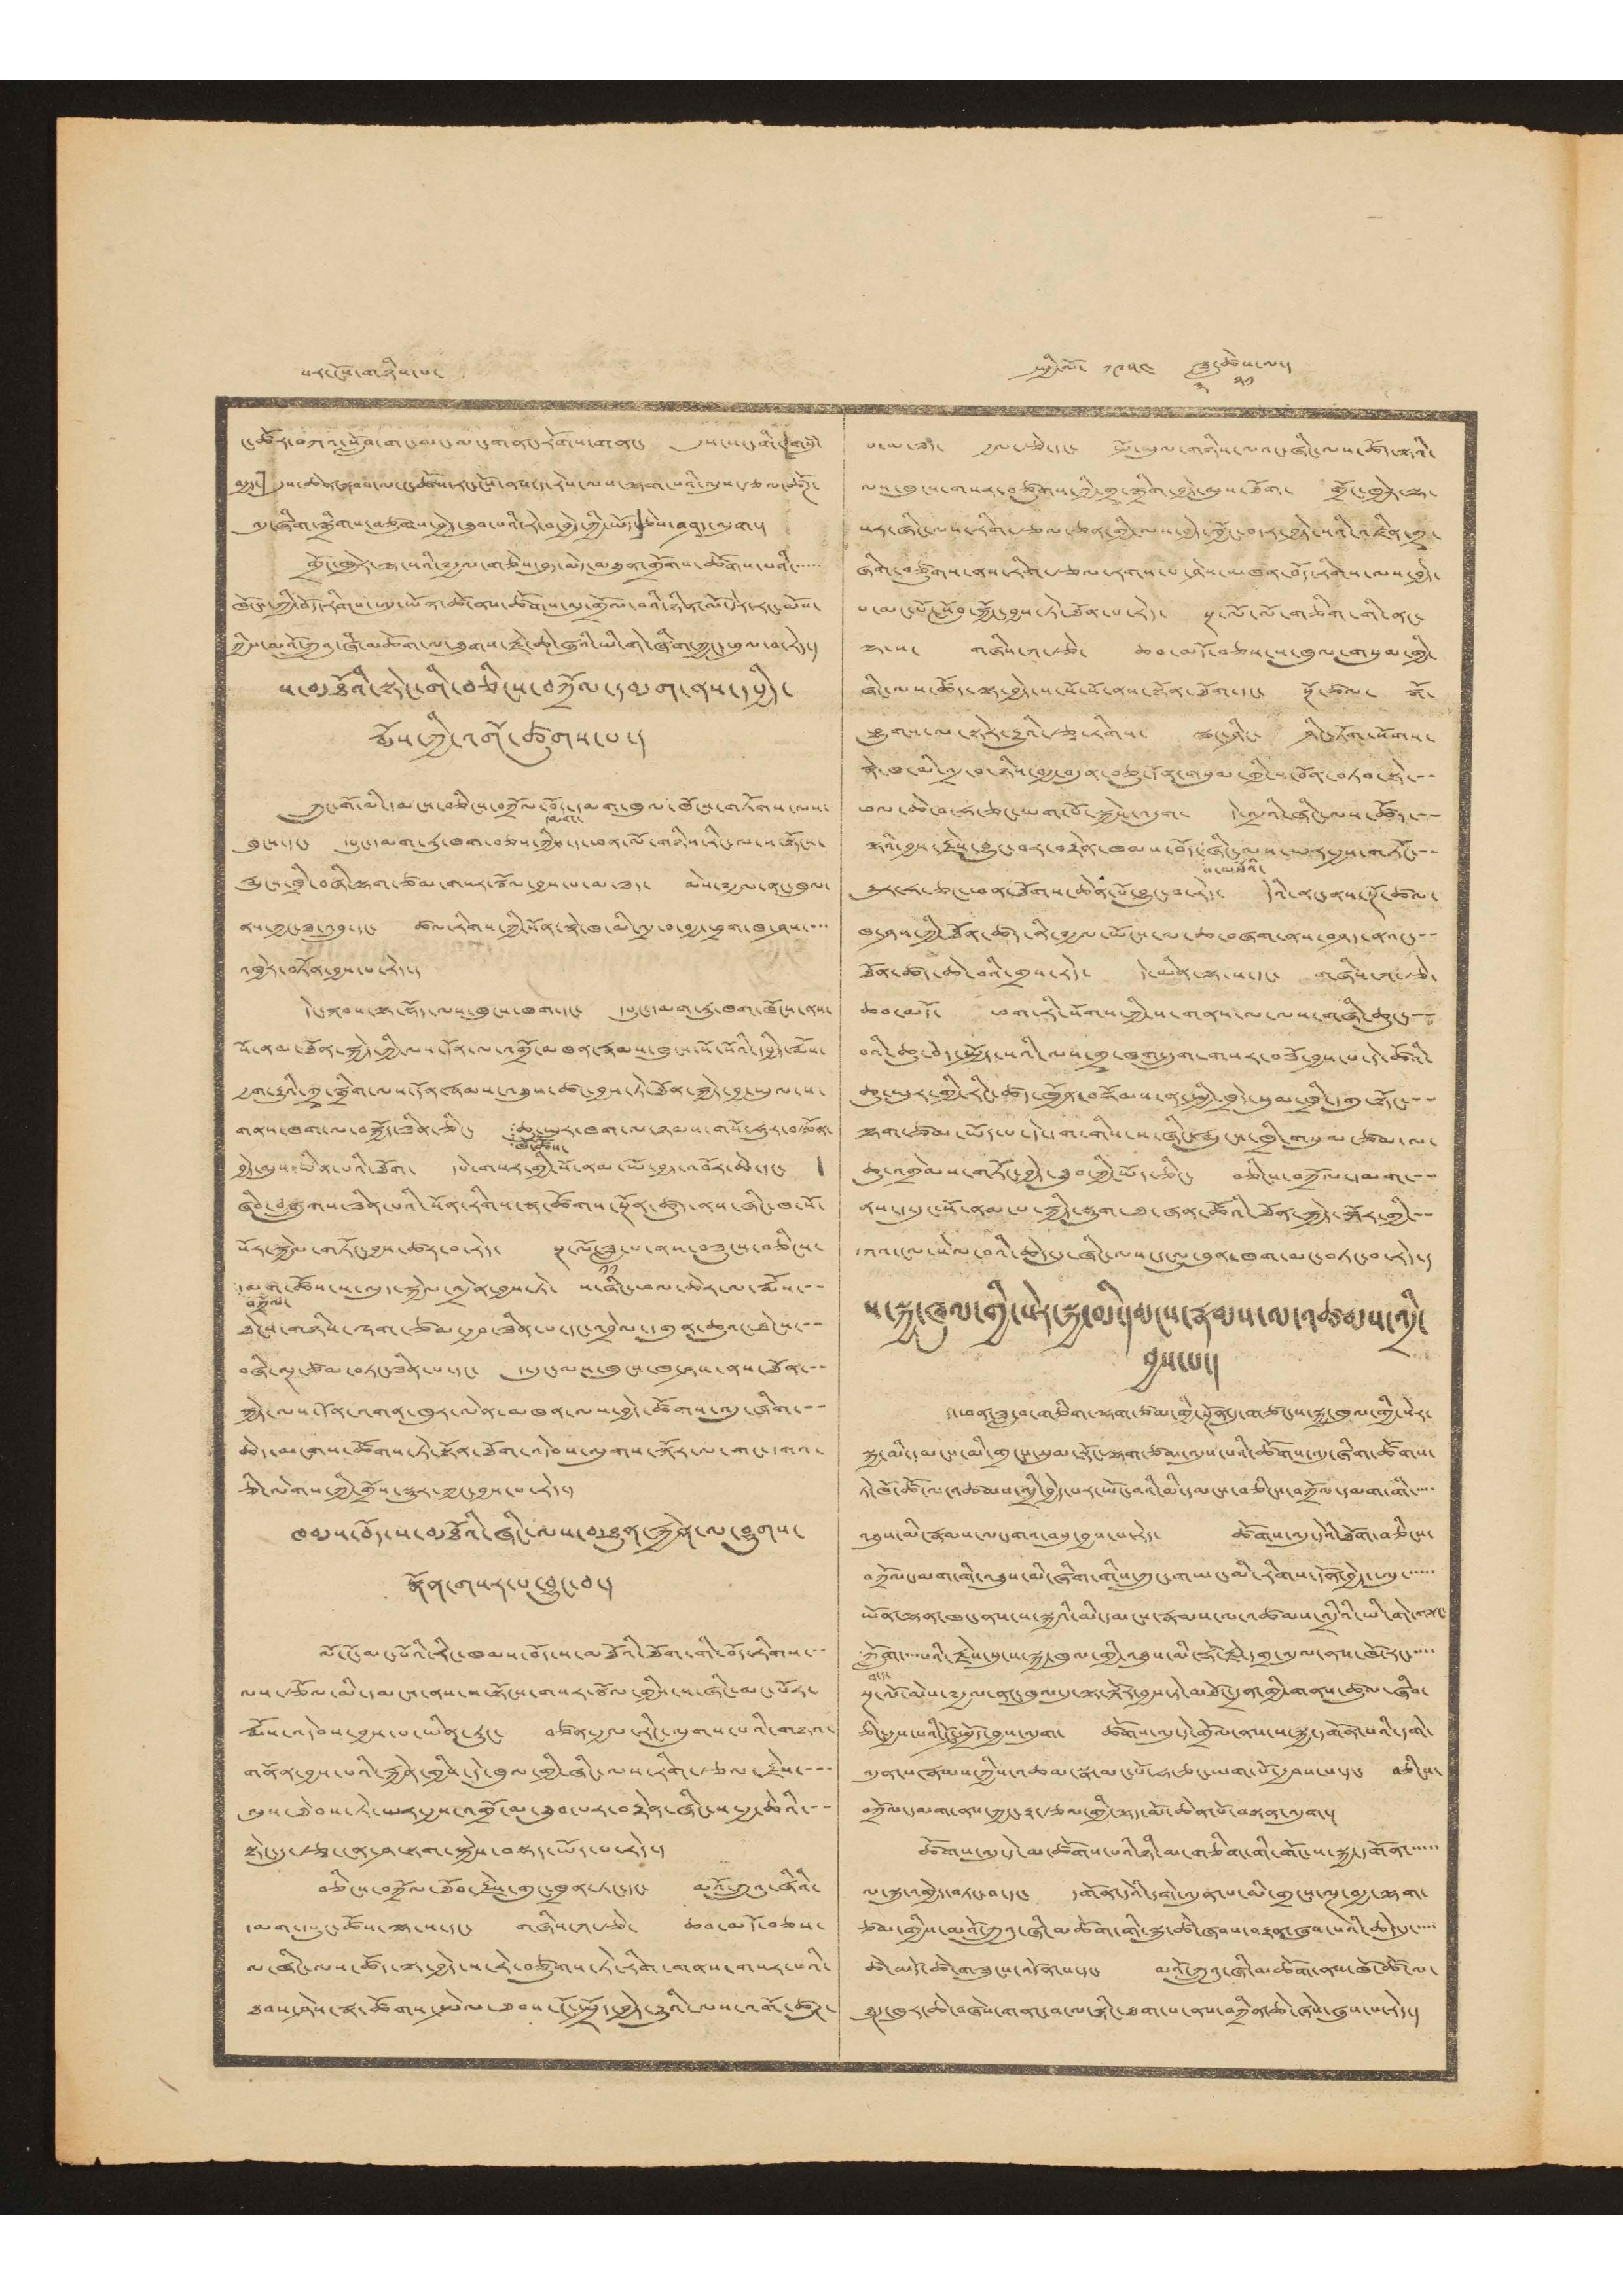པར་ངོས་གཉིས་པ་ སྤྱི་ལོ་ ༡༩༥༤ ཟླ་
༣
ཚེས་
༢༡
ལ་།
ང་ཚོར་བཀའ་སློབ་གང་མང་མང་གནང་རོགས་གནང་ དུས་སང་གི་「གསུཾ་
བརྒྱད་」དུས་ཆེན་སྐབས་ལ་ང་ཚོས་རང་ངོས་ནས་ད་རེས་ལས་ལྷག་པའི་ལུས་རྩལ་ཚོཊ་
འདུ་ཞིག་སྒྲིགས་བཙུགས་བྱེད་ཐུབ་པའི་རེ་བ་བྱེད་ཀྱི་ཡོད་」ཅེས་བཤད་འདུག་།
གྲོང་ཁྱེར་ལྷ་སའི་༸རྒྱལ་གཅེས་བུད་མེད་མཐུན་གྲོགས་ཚོགས་པའི་་་་་་
ཁོངས་ཀྱི་བོད་རིགས་ཨུ་ཡོན་ཚོ་ནས་ཚོགས་འདུ་གྲོལ་བའི་ཉིན་མོ་དེར་རང་མོས་
ཀྱིས་མའོ་ཀྲུའུ་ཞི་མཆོག་ལ་ཐུགས་རྗེ་ཆེ་ཞུའི་ཡི་གེ་ཞིག་ཀྱང་ཕུལ་བ་རེད་།
ས་མཐོའི་སྟེང་གི་བཅིངས་བཀྲོལ་དམག་ནས་དཔྱིད་
རྨོས་ཀྱི་འགོ་ཚུགས་པ་།
ཀྲུང་གོ་མི་དམངས་བཅིངས་བཀྲོལ་
དམག་
བོད་དམག་ཁུལ་ཁོངས་གཏོགས་ལས་
ཁུངས་དང་ དཔུང་དམག་རུ་ཁག་བཅས་ཀྱིས་ད་ཕན་ལོ་གཉིས་རིང་ལ་ས་སྟོངས་
རྨུངས་ཁྲི་བཞི་ལྷག་ཙམ་གསར་སྦོལ་བྱས་པ་མ་ཟད་ མེས་༸རྒྱལ་ནང་ཁུལ་
ནས་ཀྱང་ཟ་འབྲུ་དང་ ཚལ་རིགས་ཀྱི་སོན་སྣེ་ཁ་མི་འདྲ་བ་བརྒྱ་ཕྲག་ཁ་ཤས་་་་
འཁྱེར་བཏོན་བྱས་པ་རེད་།
དེང་སྐབས་ལྟ་སྡོད་ལས་ཁུངས་ཁག་དང་ དཔུང་དམག་རུ་ཁག་ཁོངས་ནས་
སོ་ནམ་ཐོན་སྐྱེད་ཀྱི་ལས་དོན་ལ་འགྲོ་མཁན་རྣམས་ཁུངས་སོ་སོའི་དཔྱིད་རྨོས་
རྒྱག་རྒྱུའི་གྲྭ་སྒྲིག་ལས་དོན་རྣམས་འཐུས་ཚང་བྱས་ཏེ་ཐོན་སྐྱེད་བྱ་ཡུལ་ས་
གནས་ཁག་ལ་བསྐྱོད་ཟིན་ཅིང་
ཁོ་ཚོས་
ཆུ་ཡུར་ཁག་ལ་ཉམས་གསོ་ཧུར་བརྩོན་
བྱེད་ལུས་ཡིན་པའི་ཐོག་ དཔེ་གསར་གྱི་སོ་ནམ་ཡོ་བྱད་འབོར་ཆེ་དང་ །
ཞིབ་བསྒྲུབས་ཟིན་པའི་སོན་རིགས་སྣ་ཚོགས་སྔོན་ཚུད་ནས་ཞིང་ཁ་སོ་
སོར་སྐྱེལ་གཏོང་བྱས་ཚར་བ་རེད་ སྔ་ལོ་ཟླ་
༡༡
པ་ནས་བཟུངས་བཅིངས་
བཀྲོལ་
དམག་ཚོས་ས་ལུད་སྐྱེལ་འདྲེན་བྱས་ཏེ་ ས་ཞིང་ཕལ་ཆེར་ལ་རྨོས་་་
ཐེངས་གཉིས་ལྷག་ཙམ་རྒྱབ་ཟིན་པ་དང་འབྲེལ་དགུན་ཆུའང་ཐེངས་་་
བཞི་ལྔ་ཙམ་བཏང་ཟིན་པ་དང་ ད་དུང་ལས་ཁུངས་ཁ་ཤས་ནས་ཐོན་་་
སྐྱེད་ལས་དོན་འགན་ཁུར་ལེན་མཁན་ལས་བྱེད་ཚོགས་འདུ་ཞིག་་་
ཆེད་མངགས་ཚོགས་ཏེ་སྟོན་ཐོག་འདེབས་ལུགས་སྐོར་ལ་གང་དགའ་
ཅི་ལེགས་ཀྱི་གྲོས་སྡུར་ཀྱང་བྱས་པ་རེད་།
ཁམས་བོད་ས་མཐོའི་ཞིང་ལས་མཐུན་རྐྱེན་ལ་ཤུགས་
སྣོན་གསར་པ་བྱུང་བ་།
ལོ་ངོ་མང་པོའི་རིང་ཁམས་བོད་ས་མཐོའི་ཐོག་གི་བོད་རིགས་་་
ལས་རྩོལ་མི་དམངས་ནས་ས་སྟོངས་གསར་སྦོལ་གྱིས་ས་གཞི་མང་པོར་
རྨོས་འདེབས་བྱས་པ་ཡིན་རུང་ བཙན་རྒྱལ་རིང་ལུགས་པའི་གཉའ་
གནོན་བྱས་པའི་རྐྱེན་གྱིས་དེ་ཁུལ་གྱི་ཞིང་ལས་རིག་རྩལ་རྗེས་་་་
ལུས་ཐེབས་ཏེ་ཡར་རྒྱས་འགྲོ་མ་ཐུབ་པར་བརྟེན་ཞིང་ས་རྒྱ་ཆེའི་་་
སྟེང་དུ་རྩ་ངན་ཤ་སྟག་སྐྱེས་བསྡད་ཡོད་པ་རེད་།
བཅིངས་བཀྲོལ་ཐོབ་རྗེས་གུང་ཁྲན་ཏང་དང་ མའོ་ཀྲུའུ་ཞིའི་
དམག་དཔུང་ཚོས་ལྷ་ས་དང་ གཞིས་ཀ་རྩེ་ ཆབ་མདོ་བཅས་
ལ་ཞིང་ལས་ཚོད་ལྟ་བྱེད་ས་རེ་བཙུགས་ཏེ་རིག་གནས་གསར་པའི་
ཐབས་ཤེས་སྣ་ཚོགས་སྤེལ་ཐབས་ངོ་སྤྲོད་བྱེད་རྒྱུའི་ལས་འགོ་ཚུཊ་
པ་མ་ཟད་ རྒྱལ་རྩེ་དང་ སྤོ་ཡུལ་གཉིས་ལའང་ཞིང་ལས་ཚོད་ལྟའི་
ལས་ཁུངས་གསར་བཙུགས་ཀྱི་གྲྭ་སྒྲིག་བྱེད་མུས་ཐོག་ གྲོང་ཁྱེར་ལྷ་
སར་ཞིང་ལས་རིག་རྩལ་ཅན་གྱི་ལས་བྱེད་སྦྱོང་བདར་བྱེད་པའི་འཛིན་གྲྭ་
ཞིག་བཙུགས་ནས་རིག་རྩལ་རགས་པ་ཤེས་མཁན་བོད་རིགས་ལས་བྱེད་
པ་མམང་པོ་སློབ་སྦྱོང་བྱས་ཏེ་ཐོན་པ་རེད་ སྔ་ལོ་ལོ་གཅིག་གི་ནང་
ལྷ་ས་ གཞིས་ཀ་རྩེ་ ཆབ་མདོ་བཅས་ས་ཁུལ་གསུམ་གྱི་
ཞིང་ལས་ཚོད་ལྟ་བྱེད་ས་སོ་སོ་ནས་སྟོན་ཐོག་དང་ སྔོ་ཚལ་ སྒོ་
ཕྱུགས་ལ་སྟེར་རྒྱུའི་རྩ་རིགས་ ལྕང་ཤིང་ ཤིང་ཏོག་སོགས་
སྣེ་ཁ་མི་འདྲ་བ་ཉིས་བརྒྱ་བདུན་བཅུ་དོན་གསུམ་གྱི་ས་བོན་བཏབ་སྟེ་་་
ཕལ་ཆེ་བ་ཧ་ཅང་ཡག་པོ་སྐྱེས་འདུག་ དེ་འདྲའི་ཞིང་ལས་ཚོད་་་
ལྟའི་བྱས་རྗེས་བྱུང་བར་བརྟེན་ཁམས་བོད་
ས་མཐོའི་
ཞིང་ལས་ཡར་རྒྱས་གཏོང་་་
རྒྱུར་ཧ་ཅང་ཕན་ཐོགས་ཆེན་པོ་བྱུང་བ་རེད་ དེའི་ནང་ནས་སྔོ་ཚལ་
ཁ་ཤས་ཀྱི་ཐོན་ཚད་ནི་༸རྒྱལ་ཡོངས་ལ་ཆ་བཞག་ནས་བཤད་ནའང་་་
ཐོན་ཚད་ཆེ་བའི་གྲས་རེད་ དེ་མིན་ལྷ་ས་དང་ གཞིས་ཀ་རྩེ་
ཆབ་མདོ་ ཕག་རི་སོགས་ཀྱི་ས་གནས་ལ་ལས་གཞི་ཆུང་་་
བའི་ཆུ་བེད་སྤྱོད་སའི་ལས་གྲྭ་ཁག་དྲུག་གསར་བཟོ་བྱས་པ་དེ་ཚོའི་
ཆུ་ཡུར་གྱི་རིང་ཚད་ཁྱོན་བསྡོམས་ན་སྤྱི་ཁྲེད་སུམ་ཁྲི་དགུ་སྟོང་་་
ལྷག་ཙམ་ཡོད་པ་དེ་དག་གིས་ས་ཞིང་རྨུངས་ཁྲི་གསུམ་ཙམ་ལ་
ཆུ་འགྲེམས་གཏོང་བྱེད་ཐུབ་ཀྱི་ཡོད་ཅིང་ བཅིངས་བཀྲོལ་དམག་་་་
ནས་ད་དུང་སོ་ནམ་པ་སྐྱིད་སྡུག་ཐ་ཞན་ཚོའི་ཐོན་སྐྱེད་སྐོར་གྱི་་་
དཀའ་ངལ་སེལ་བའི་ཆེད་དུ་ཞིང་ལས་དངུལ་བུན་ཁག་མང་བཏང་བ་རེད་།
ས་སྐྱ་ཁུལ་གྱི་སེར་སྐྱ་མི་དམངས་རྣམས་ལ་འཚམས་འདྲི་
བྱས་པ་།
ད་ཕན་ཟླ་བ་གཅིག་ལྷག་ཙམ་གྱི་སྔོན་དུ་གཙང་ས་སྐྱ་ཁུལ་གྱི་སེར་
སྐྱ་མི་དམངས་མི་གྲངས་སུམ་སྟོང་ལྷག་ཙམ་འདུས་པའི་ཚོགས་འདུ་ཞིག་ཚོགས་
ཏེ་ཁོ་ཚོ་ལ་འཚམས་འདྲི་བྱེད་པར་ཡོང་བའི་མི་དམངས་བཅིངས་བཀྲོལ་དམག་གི་་་་་
འཐུས་མི་རྣམས་ལ་དགའ་བསུ་བྱས་པ་རེད་ ཚོགས་འདུ་དེའི་ཐོག་བཅིངས་
བཀྲོལ་དམག་གི་འཐུས་མི་ཞིག་གིས་ཀྲུང་གཡང་མི་རིགས་དོན་བྱེད་ཨུ་་་་་་
ཡོན་ལྷན་ཁང་ནས་ས་སྐྱའི་མི་དམངས་རྣམས་ལ་འཚམས་འདྲིའི་ཡི་གེ་གནང་
བ་དང་
ཀློག་་་་པའི་རྗེས་སུ་ས་སྐྱ་ཁུལ་གྱི་འཐུས་མི་རྡོ་རྗེ་དགྲ་འདུལ་ནས་ཁོ་རང་་་་་
སྔ་ལོ་མེས་༸རྒྱལ་ནང་ཁུལ་དུ་ལྟ་སྐོར་བྱས་ཏེ་མཐོང་དྲན་གྱི་གནས་ཚུལ་ཞིབ་
ཅིང་བྱས་པའི་ངོ་སྤྲོད་བྱས་འདུག་ ཚོགས་འདུ་དེ་གྲོལ་ནས་ས་སྐྱ་དགོན་པའི་དགེ་
འདུན་པ་རྣམས་ཀྱིས་འཆམ་སྣ་མང་པོ་ཧ་ཅང་ཡག་པོ་རྒྱབས་པ་དང་ བཅིངས་
བཀྲོལ་དམག་ནས་ཀྱང་རྟ་རྩལ་གྱི་ལྟད་མོ་ཆེན་པོ་བསྟན་འདུག་།
ཚོགས་འདུ་དེ་མ་ཚོགས་པའི་ཉི་མ་གཅིག་གི་གོང་ས་སྐྱ་དགོན་་་་་་
ལ་སྐུ་འགྱེད་བཏང་བ་དང་ དགོན་དེའི་དགེ་འདུན་པ་མི་གྲངས་ལྔ་བརྒྱ་ལྷག་
ཙམ་གྱིས་མའོ་ཀྲུའུ་ཞི་མཆོག་གི་སྐུ་ཚེ་ཞབས་བརྟན་ཞུས་པའི་ཆེད་དུ་་་་་
ཚེ་མདོ་ཚེ་གཟུངས་འདོན་པ་དང་ མའོ་ཀྲུའུ་ཞི་མཆོག་ནས་ཁོ་ཚོ་ལ་
ཐུཊ་ཁུར་ཆེ་བཞེས་གནང་བ་ལ་སྙིང་ཐག་པ་ནས་བཀྲིན་ཆེ་ཞེས་ཞུས་པ་རེད་།
